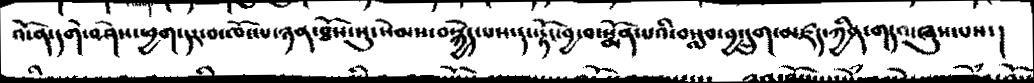འོ་ན་དགེ་བཤེས་ཕྱག་དར་བ་ཁོང་པ་ཉན་ཐོས་སུ་སེམས་བསྐྱེད་པས་དང་རྟོང་བྱ་བ་སྨོན་པའི་བསླབ་བྱ་དྲུག་མཛད་ཀྱིན་གདའ་ཞུལ་པས་།
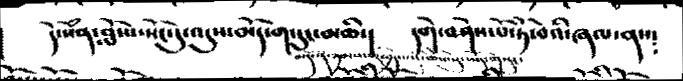དེ་སེཾན་བློས་ས་སོང་དུ་འདུས་མདོ་ག་དུང་མཆི་།    དགེ་བཤེས་པོ་ཏོ་བའི་ཞལ་ནས༴
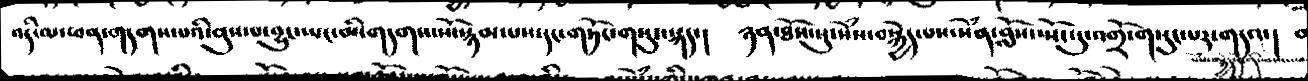འདི་ལ་ཕན་གདགས་པའི་ནུས་པ་བྱུང་ཡང་མི་གདགས་སོ་སྙམས་པས་དང་གཏོང་གསུང་སྐད་།    ཉན་ཐོས་སུ་སེཾས་བསྐྱེད་པས་སེཾན་བློས་སྤོང་དུ་འགྲོ་གསུང་པར་གདའ་།
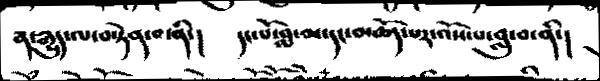ན་རྒྱུདལ་བསྟེན་བ་ནི་།   དང་པོ་བླ་མ་དང་མཆོད་པར་འོས་པ་བླུ་བ་ནི་།
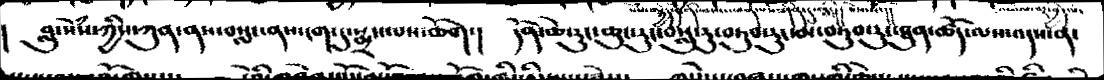།   བླུ་སེཾས་ཀྱིས་ཀུན་ནས་བསླང་ནས་ངག་དུ་སྨྲས་པས་ཆོག་།     དོན་ཆེ་རུང་ཆུང་རུང་བསླུ་རུ་བཏུབ་རུང་མ་བཏུབ་རུང་ཐུན་ཚོད་ལས་འདས་ན་
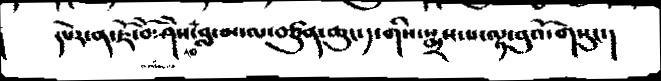དཔེར་ན་ཇོ་བོ་ཤེས་རབ་བླ་མ་ལ་བཙུན་ཆུང་༡་གིས་སྨྲས་པ་ལྟ་བུའོ་གསུང་།
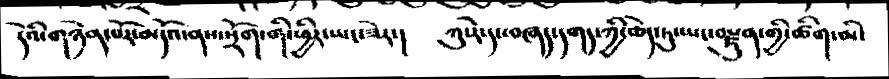དེའི་གཉེན་པོར་མདོའ་ནས་སྲོག་གི་ཕྱིར་ཡང་ཟེར་།   ཀུ་རེ་དང་བཞད་དགད་ཀྱི་ཆེད་ཏུ་ཡང་བསྫུན་གྱི་ཚིག་མི་
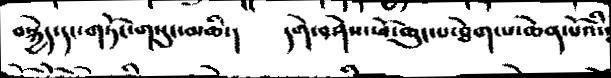བསྐྱེད་དང་གཏོང་གསུང་མཆི་།    དགེ་བཤེས་ཕོ་ཆུང་པ་ཐེག་པ་ཆེན་པོའི་
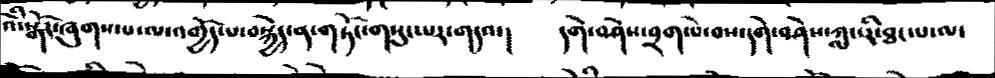འོི་སྒོར་ཞུགས་པ་ལ་འགྱོད་པ་བསྐྱེད་ན་གཏོང་གསུང་པར་གདའ་།   དགེ་བཤེས་བྲག་པེ་བས་དགེ་བཤེས་ཀླང་རི་ཐང་པ་ལ་
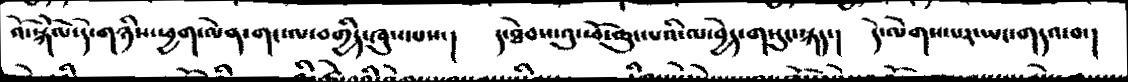འོ་སྐོལ་དེ་གཉིས་ཕྱག་ལེན་གང་ལ་བགྱིད་ཞུས་པས་།   དེ་ཐེབས་འུ་ཕོ་ཆུང་པའི་ལ་བྱེད་གསུང་སྐད་།   དེ་ལེགས་པར་ཡང་གདའ་བ་།
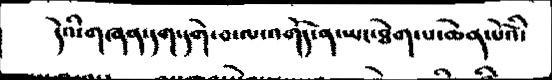དེའི་གཞན་དག་དགེ་བ་ལ་འགོད་ན་ཡང་ཐེག་པ་ཆེན་པོའི་
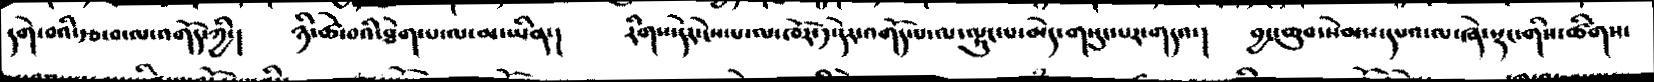དགེ་བའི་རྩ་བ་ལ་འགོད་ཀྱི་།   ཉི་ཚེ་བའི་ཐེག་པ་ལ་མ་ཡིན་།   རིགས་དེར་ངེས་པ་ལ་ཁོར་༡་དེར་འགོད་པ་ལ་ལྟུང་པ་མེད་གསུང་པར་གདའ་།   བྱང་ཆུབ་སེམས་དཔའ་ལ་ཞེ་སྡང་གིས་ཚིགས་
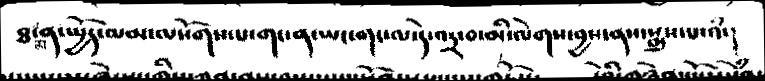ཐ་མ་ན་སྤྱོད་ལམ་ལསོགས་པ་གང་ན་ཡང་གང་ལ་དེ་འདྲ་བ་མི་ལེགས་བྱས་ནས་སྨྲས་པ་འཾ་།
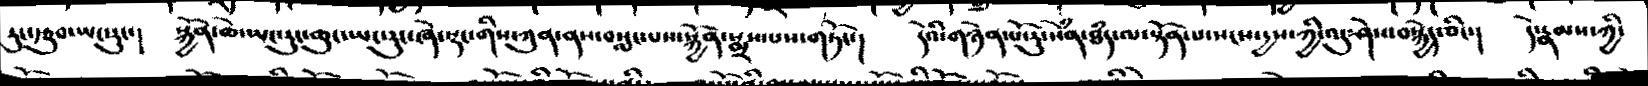ཏུང་རྩུ་ཡང་རུང་།   སྐྱོན་ཆེ་ཡང་རུང་ཆུང་ཡང་རུང་ཞེ་སྡང་གིས་ཀུན་ནས་བསླང་པས་སྐྱོན་སྨྲས་་པས་གཏོང་།   དེའི་གཉེན་པོ་རུ་སེཾན་ཐཾད་ལ་སྟོན་པ་སངས་དྱས་ཀྱི་འདུ་ཤེས་བསྐྱེད་ཅིང་།   དེ་རྣམས་ཀྱི་
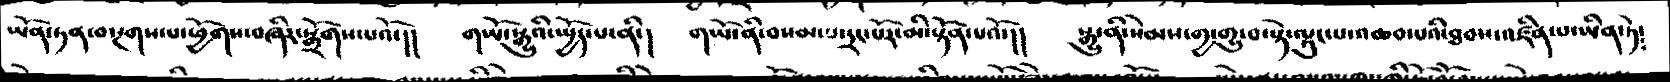ཡོན་ཏན་བསྔགས་པ་ཕྱོགས་བཞིར་སྒྲོགས་པའོ་།།   གཡོ་སྒྱུའི་ཡྱོད་པ་ནི་།    གཡོ་ནི་བསམ་པ་དྲང་པོར་མི་སྟོན་པའོ་།།   སྒྱུ་ནི་སེམས་གྱ་གྱུ་བ་སྟེ་ལྟུང་པ་འཆབ་པའི་ཐབས་འཛིན་པ་ཡིན་ཏེ༴
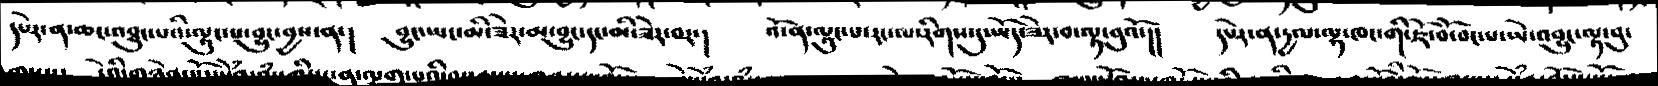དཔེར་ན་ཆང་འཐུང་པའི་ལྟུང་པ་བྱུང་བྱས་ན་།   བྱུང་ཡང་མི་ཟེར་མ་བྱུང་དང་མི་ཟེར་བར་།    འོ་ན་ལྟུང་པ་རང་ལ་རིགས་དུ་ཡོད་ཟེར་བ་ལྟ་བུའོ་།།    དཔེར་ན་དྱལ་ལྷ་ཁང་གི་ཇོ་བཾ་བོང་པ་ཡེ་འབྱུང་ལྟ་བུ་
